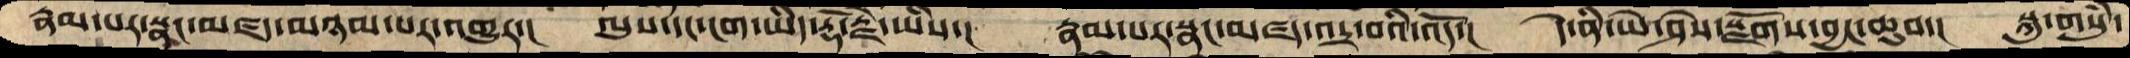རྣམ་པར་སྣང་མཛད་མཉམ་པར་འགྱུར་།།  ལུས་དང་ངག་ཡིད་རྡོ་རྗེ་ཡིས་།  རྣམ་པར་སྣང་མཛད་འདྲ་བའི་འོད་།  དེ་ནི་ཡེ་ཤེས་སྫོགས་བྱང་ཆུབ་།   སྐུ་གསུཾ་
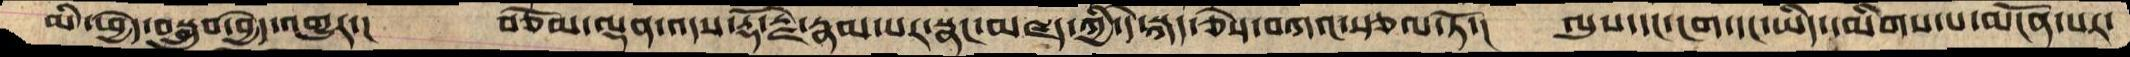མི་ཕྱེད་བསྒྲུབ་བྱེད་འགྱུར་།  བཅོམ་ལྡན་འདས་རྡོ་རྗེ་རྣམ་པར་སྣང་མཛད་ཀྱི་དེ་སྐད་ཅེས་བཀའ་སྩལ་ཏོ་།  ལུས་དང་ངག་དང་ཡིད་དམིགས་པ་མངོན་པར་
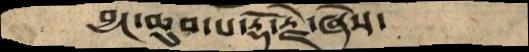བྱང་ཆུབ་པ་རྡོ་རྗེ་ཞེས་
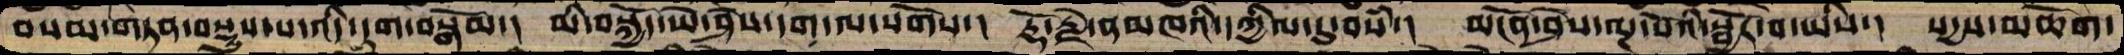བསམ་གཏན་བསྡུས་པ་འདི་དག་བསྒོམ་། མི་བསྐྱོད་ཡེ་ཤེས་དག་ལ་སོགས་།  རྡོ་རྗེ་ནམཁའི་དཀྱིལ་དུ་བསཾ་།  མངོན་ཤེས་ལྔ་པོའི་སྦྱོར་བ་ཡིས་།  སདྱས་མཆོག་
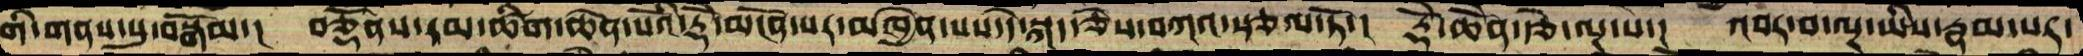གི་གནས་སུ་བསྒོམ་།  བཅྡོཾནས་དམ་ཚིག་ཆེན་པོའི་རྡོེ་མངོན་པར་མཁྱེན་པས་དེ་སྐད་ཅེས་བཀའ་སྩལ་ཏོ་། རྡོེ་ཆེནོ་རྩེ་ལྔ་པ་།  འབར་བ་ལྔ་ཡིས་རྣམ་པར་
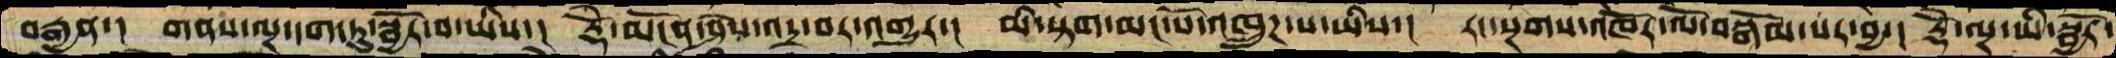བརྒྱན་།  གནས་ལྔ་དག་ཏུ་སྦྱོར་བ་ཡིས་།  རྡོེ་མངོན་ཤེས་འདྲ་བར་འགྱུར་།  མི་སྟག་མང་པོ་འཁྲུཌ་པ་ཡིས་།  རང་སྔགས་འཁོར་ལོ་བསྒོམ་པར་བྱེད་།  རྡོེ་ལྔ་ཡི་སྦྱོར་
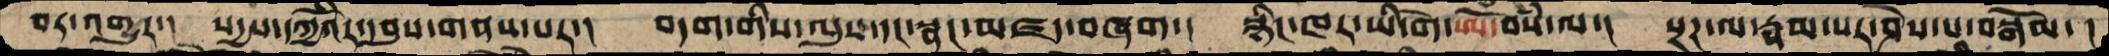བར་འགྱུར་།  སདྱས་དཀྱིོའར་དབུས་གནས་པར་།  བདག་གིས་ལུས་དང་སྣང་མཛད་བཞག་།  སྙིང་ཁར་ཡི་གེ་ཨོཾ་བསཾ་པ་།  སྔཌ་ལ་རྣམ་པར་ཤེས་པ་བསྒོམ་།
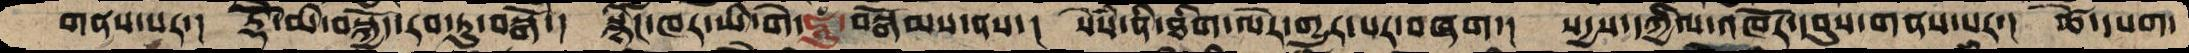གནས་པར་།  རྡོེ་མི་བསྐྱོད་རབ་ཏུ་བསྒོ་།  སྙིང་ཁར་ཡི་གེ་ཧཱུཾ་བསྒོམས་ནས་།  སེཾས་ནི་ཐིག་ལེར་གྱུར་པར་བཞག་།  སདྱས་དཀྱིལ་འཁོར་དབུས་གནས་པར་།  ཚེ་དཔག་
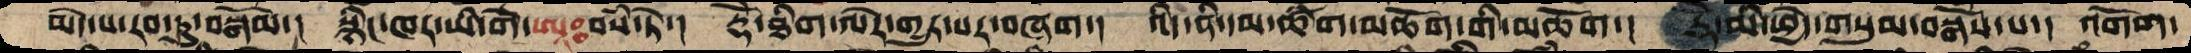མེད་པ་རབ་ཏུ་བསྒོམ་།  སྙིང་ཁར་ཡི་གེ་ཨཱཿབསཾ་ཏེ་།  རྡོེ་ཐིག་ལེར་གྱུར་པར་བཞག་།  འདི་ནི་དམ་ཚིག་མཆོག་གི་མཆོག་།  རྡོེ་མི་ཕྱེད་གསུམ་བསྒོཾས་པ་།  འགོག་
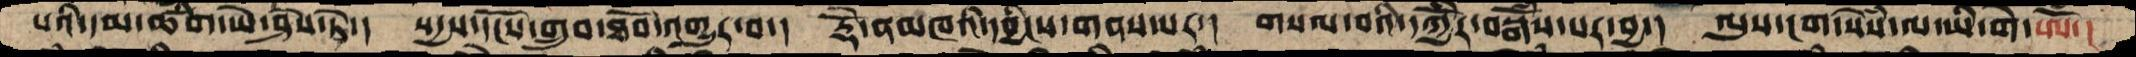པའི་དམ་ཚིག་ཡེ་ཤེས་ཏེ་།  སདྱས་དངོས་གྲུབ་ཐོབ་འགྱུར་བ་།  རྡོེ་ནམཁའི་དབྱིངས་གནས་པར་།  གསལ་བའི་དཀྱིོར་བསྒོཾས་པར་བྱ་།  ལུས་ངག་སེཾས་ལ་ཡི་གེ་ཨོཾ་།
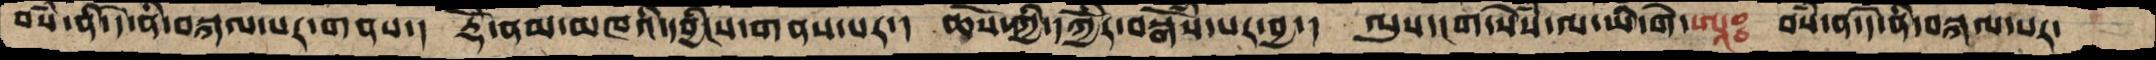བསཾ་ནི་དེ་ནི་བསྐལ་པར་གནས་།  རྡོེ་ནམ་མཁའི་དབྱིངས་གནས་པར་།  ཆོས་ཀྱི་དཀྱིོར་བསྒོཾས་པར་བྱ་།  ལུས་དང་སེཾས་ལ་ཡི་གེ་ཨཱཿ  བསཾ་ན་དེ་ནི་བསྐལ་པར་
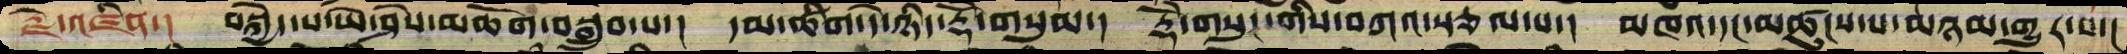རྗེ་འཛིན་།  བསྐྱེད་པ་ཡེ་ཤེས་མཆོག་བསྒྲུབ་པ་།  དམ་ཚིག་དེ་ཉིད་རྡོེ་གསུམ་།  རྡོེ་གསུང་གིས་བཀའ་སྩལ་པ་།  མཁའ་དང་མཚུངས་པ་མཉམ་གྱུར་པ་།
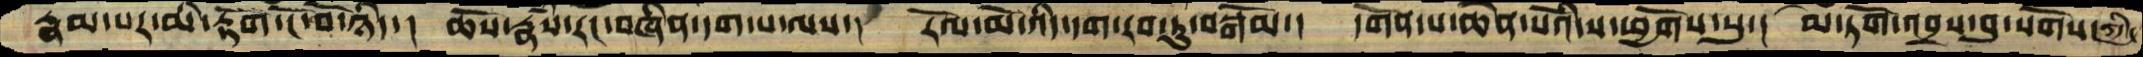རྣམ་པར་མི་རྟོག་ངོ་བོ་ཉིད་།  ཆོས་རྣཾས་རང་བཞིན་དག་པ་ལས་།  རོལ་མོ་འདི་དག་རབ་ཏུ་བསྒོམ་།  དགོན་པ་ཆེན་པོའི་ས་ཕྱོགས་སུ་།  མེ་ཏོག་འབྲས་བུ་སོགས་ཀྱི་
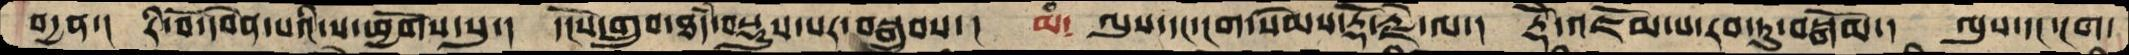བདྱན་།  རི་བོ་དབེན་པའི་ས་ཕྱོགས་སུ་།  དངོས་གྲུབ་ཐཾད་བསྡུས་པར་བསྒྲུབས་།  མཾ༴  ལུས་དང་ངག་སེམས་རྡོ་རྗེ་ལ་།  རྡོེ་འཇོམ་པ་རབ་ཏུ་བསྒོམ་།  ལུས་དང་ངག་
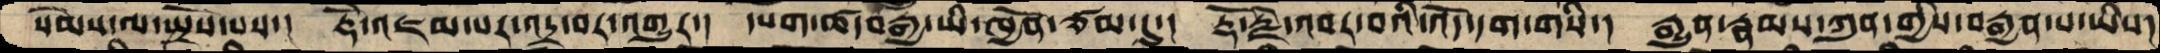སེམས་ལ་སྤྲོས་པས་།  རྡོེ་འཇམ་པར་འདྲ་བར་འགྱུར་།  དཔག་མེད་བརྒྱ་ཡི་ཁྱོན་ཙམ་དུ་།  རྡོ་རྗེ་འབར་བའི་འོད་དག་གིས་།  རྒྱུན་རྣམས་ཀུན་གྱིས་བརྒྱན་པ་ཡིས་།
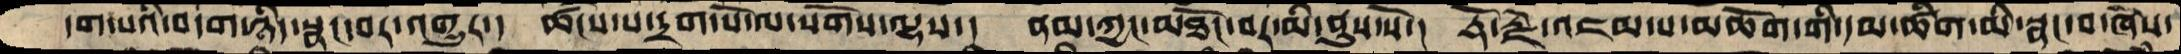དག་པའི་བདག་ཉིད་སྣང་བར་འགྱུར་།  ཚངས་པ་དྲག་པོ་ལ་སོགས་ལྷས་།  ནམ་ཀྱང་མཐོང་བར་མི་ནུས་སོ་།  རྡོ་རྗེ་འཇམ་པ་མཆོག་གི་དམ་ཚིག་མི་སྣང་བ་ཞེས་
